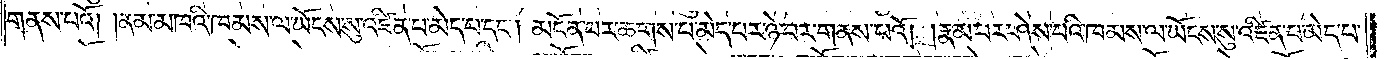གནས་པའོ། །ནམ་མཁའི་ཁམས་ལ་ཡོངས་སུ་འཛིན་པ་མེད་པ་དང༌། མངོན་པར་ཆགས་པ་མེད་པར་ཉེ་བར་གནས་པའོ། །རྣམ་པར་ཤེས་པའི་ཁམས་ལ་ཡོངས་སུ་འཛིན་པ་མེད་པ་
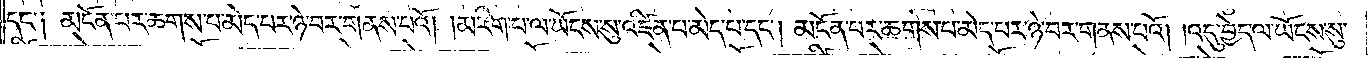དང༌། མངོན་པར་ཆགས་པ་མེད་པར་ཉེ་བར་གནས་པའོ། །མ་རིག་པ་ལ་ཡོངས་སུ་འཛིན་པ་མེད་པ་དང༌། མངོན་པར་ཆགས་པ་མེད་པར་ཉེ་བར་གནས་པའོ། །འདུ་བྱེད་ལ་ཡོངས་སུ་
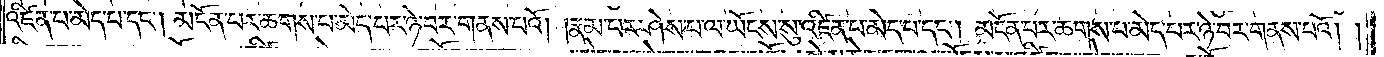འཛིན་པ་མེད་པ་དང༌། མངོན་པར་ཆགས་པ་མེད་པར་ཉེ་བར་གནས་པའོ། །རྣམ་པར་ཤེས་པ་ལ་ཡོངས་སུ་འཛིན་པ་མེད་པ་དང༌། མངོན་པར་ཆགས་པ་མེད་པར་ཉེ་བར་གནས་པའོ། །
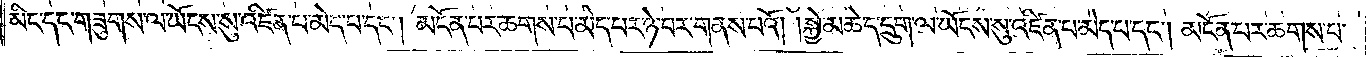མིང་དང་གཟུགས་ལ་ཡོངས་སུ་འཛིན་པ་མེད་པ་དང༌། མངོན་པར་ཆགས་པ་མེད་པར་ཉེ་བར་གནས་པའོ། །སྐྱེ་མཆེད་དྲུག་ལ་ཡོངས་སུ་འཛིན་པ་མེད་པ་དང༌། མངོན་པར་ཆགས་པ་
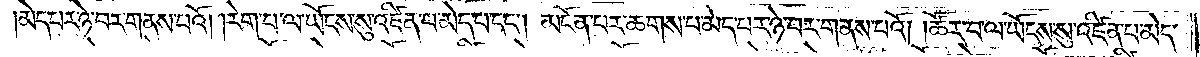མེད་པར་ཉེ་བར་གནས་པའོ། །རེག་པ་ལ་ཡོངས་སུ་འཛིན་པ་མེད་པ་དང༌། མངོན་པར་ཆགས་པ་མེད་པར་ཉེ་བར་གནས་པའོ། །ཚོར་བ་ལ་ཡོངས་སུ་འཛིན་པ་མེད་
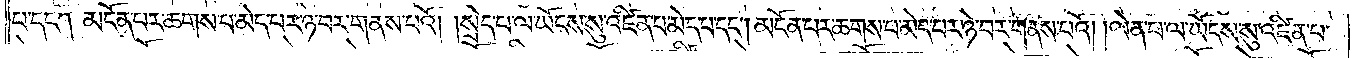པ་དང༌། མངོན་པར་ཆགས་པ་མེད་པར་ཉེ་བར་གནས་པའོ། །སྲེད་པ་ལ་ཡོངས་སུ་འཛིན་པ་མེད་པ་དང༌། མངོན་པར་ཆགས་པ་མེད་པ་ཉེ་བར་གནས་པའོ། །ལེན་པ་ལ་ཡོངས་སུ་འཛིན་པ་
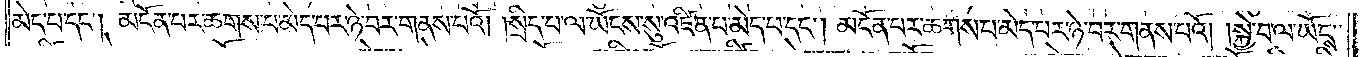མེད་པ་དང༌། མངོན་པར་ཆགས་པ་མེད་པར་ཉེ་བར་གནས་པའོ། །སྲིད་པ་ལ་ཡོངས་སུ་འཛིན་པ་མེད་པ་དང༌། མངོན་པར་ཆགས་པ་མེད་པར་ཉེ་བར་གནས་པའོ། །སྐྱེ་བ་ལ་ཡོངས་
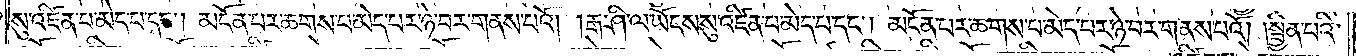སུ་འཛིན་པ་མེད་པ་དང༌། མངོན་པར་ཆགས་པ་མེད་པར་ཉེ་བར་གནས་པའོ། །རྒ་ཤི་ལ་ཡོངས་སུ་འཛིན་པ་མེད་པ་དང༌། མངོན་པར་ཆགས་པ་མེད་པར་ཉེ་བར་གནས་པའོ། །སྦྱིན་པའི་
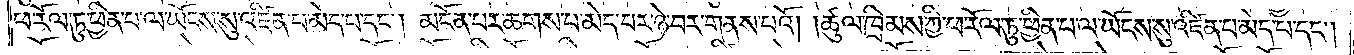ཕ་རོལ་ཏུ་ཕྱིན་པ་ལ་ཡོངས་སུ་འཛིན་པ་མེད་པ་དང༌། མངོན་པར་ཆགས་པ་མེད་པར་ཉེ་བར་གནས་པའོ། །ཚུལ་ཁྲིམས་ཀྱི་ཕ་རོལ་ཏུ་ཕྱིན་པ་ལ་ཡོངས་སུ་འཛིན་པ་མེད་པ་དང༌།
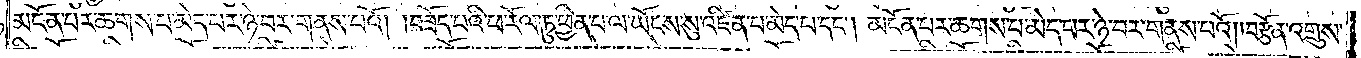མངོན་པར་ཆགས་པ་མེད་པར་ཉེ་བར་གནས་པའོ། བཟོད་པའི་ཕ་རོལ་ཏུ་ཕྱིན་པ་ལ་ཡོངས་སུ་འཛིན་པ་མེད་པ་དང༌། མངོན་པར་ཆགས་པ་མེད་པར་ཉེ་བར་གནས་པའོ། །བརྩོན་འགྲུས་
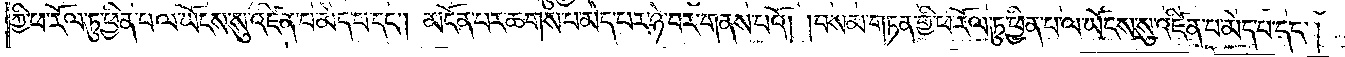ཀྱི་ཕ་རོལ་ཏུ་ཕྱིན་པ་ལ་ཡོངས་སུ་འཛིན་པ་མེད་པ་དང༌། མངོན་པར་ཆགས་པ་མེད་པར་ཉེ་བར་གནས་པའོ། །བསམ་གཏན་གྱི་ཕ་རོལ་ཏུ་ཕྱིན་པ་ལ་ཡོངས་སུ་འཛིན་པ་མེད་པ་དང༌།
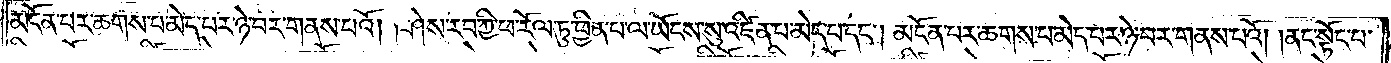མངོན་པར་ཆགས་པ་མེད་པར་ཉེ་བར་གནས་པའོ། །ཤེས་རབ་ཀྱི་ཕ་རོལ་ཏུ་ཕྱིན་པ་ལ་ཡོངས་སུ་འཛིན་པ་མེད་པ་དང༌། མངོན་པར་ཆགས་པ་མེད་པར་ཉེ་བར་གནས་པའོ། །ནང་སྟོང་པ་
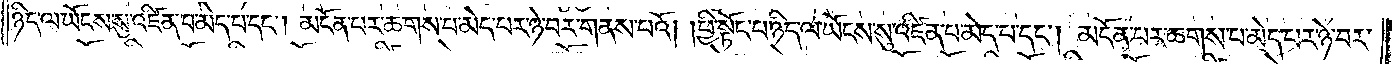ཉིད་ལ་ཡོངས་སུ་འཛིན་པ་མེད་པ་དང༌། མངོན་པར་ཆགས་པ་མེད་པར་ཉེ་བར་གནས་པའོ། །ཕྱི་སྟོང་པ་ཉིད་ལ་ཡོངས་སུ་འཛིན་པ་མེད་པ་དང༌། མངོན་པར་ཆགས་པ་མེད་པར་ཉེ་བར་
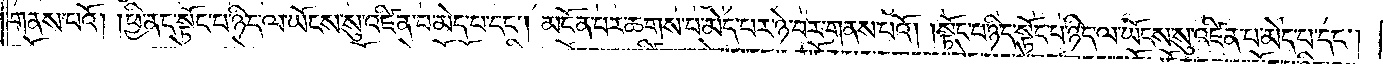གནས་པའོ། །ཕྱི་ནང་སྟོང་པ་ཉིད་ལ་ཡོངས་སུ་འཛིན་པ་མེད་པ་དང༌། མངོན་པར་ཆགས་པ་མེ་དཔར་ཉེ་བར་གནས་པའོ། །སྟོང་པ་ཉིད་སྟོང་པ་ཉིད་ལ་ཡོངས་སུ་འཛིན་པ་མེད་པ་དང༌།
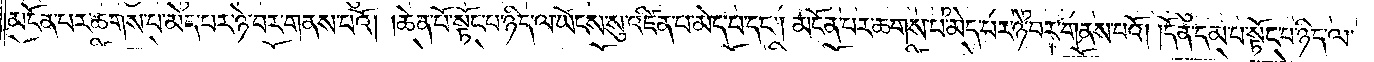མངོན་པར་ཆགས་པ་མེད་པར་ཉེ་བར་གནས་པའོ། །ཆེན་པོ་སྟོང་པ་ཉིད་ལ་ཡོངས་སུ་འཛིན་པ་མེད་པ་དང༌། མངོན་པར་ཆགས་པ་མེད་པར་ཉེ་བར་གནས་པའོ། །དོན་དམ་པ་སྟོང་པ་ཉིད་ལ་
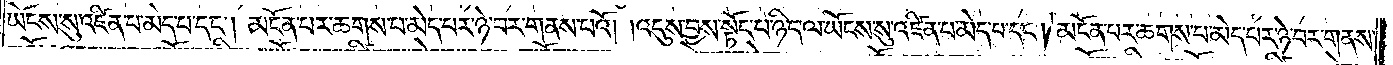ཡོངས་སུ་འཛིན་པ་མེད་པ་དང༌། མངོན་པར་ཆགས་པ་མེད་པར་ཉ་བར་གནས་པའོ། །འདུས་བྱས་སྟོང་པ་ཉིད་ལ་ཡོངས་སུ་འཛིན་པ་མེད་པ་དང༌། མངོན་པར་ཆགས་པ་མེད་པར་ཉེ་བར་གནས་
